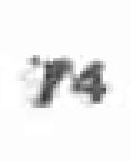14
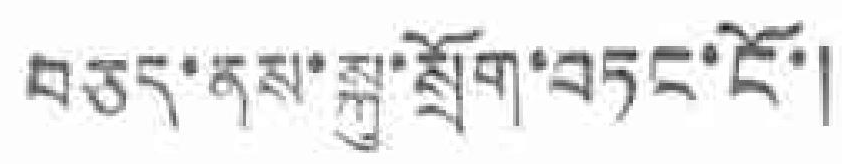བཅད་ནས་སྐུ་སྲོག་གཏང་ངོ་།
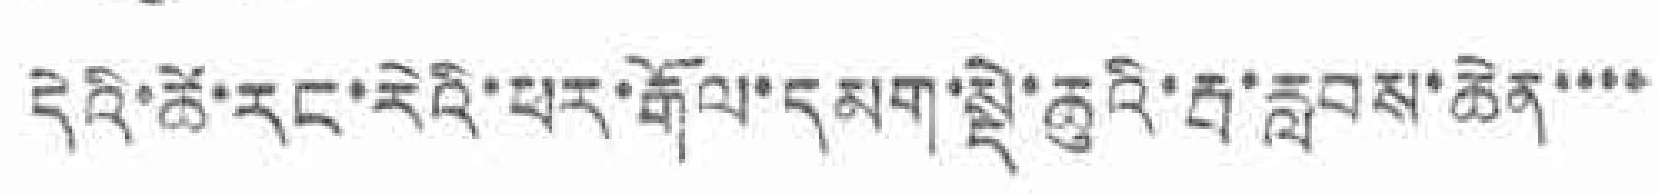དེའི་ཚེ་རང་རེའི་ཕར་རྒོལ་དམག་སྡེ་ཆུའི་རྦ་རླབས་ཆེན་་་་
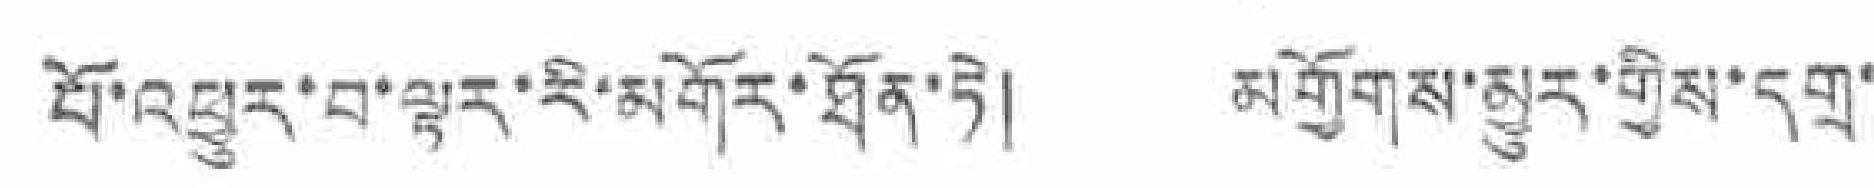པོ་འཕྱུར་བ་ལྟར་རི་མགོར་ཐོན་ཏེ། མགྱོགས་མྱུར་གྱིས་དགྲ་
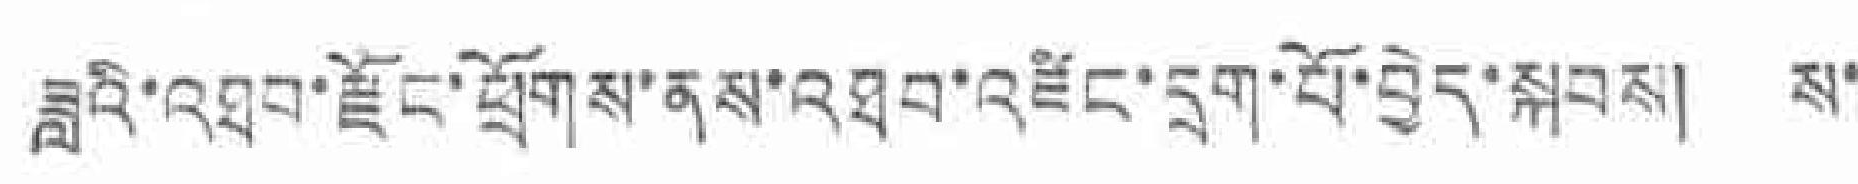ཟླའི་འཐབ་རྫོང་ཕྲོགས་ནས་འཐབ་འཛིང་དྲག་པོ་བྱེད་སྐབས། ས་
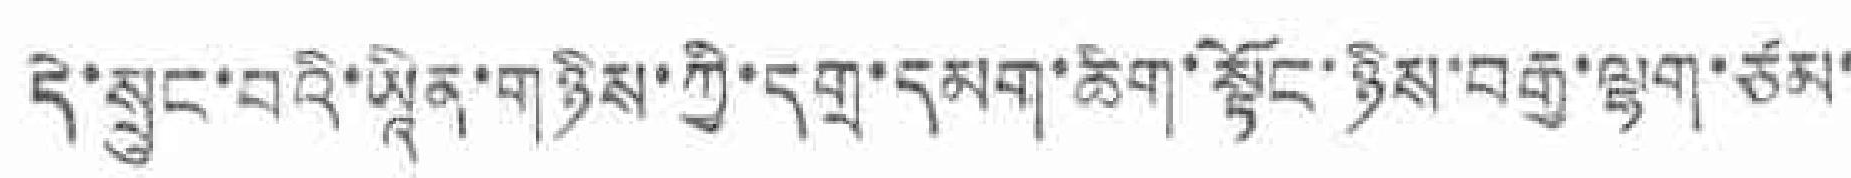དེ་སྲུང་བའི་ཡཱིན་གཉིས་ཀྱི་དགྲ་དམག་ཆིག་སྟོང་ཉིས་བརྒྱ་ལྷག་ཙམ་
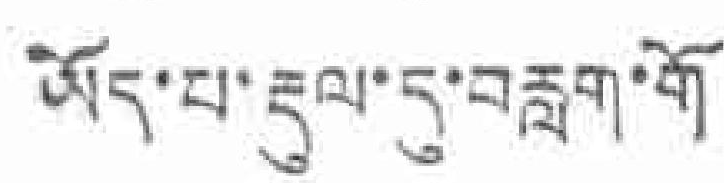ཡོད་པ་རྡུལ་དུ་བརླག་གོ
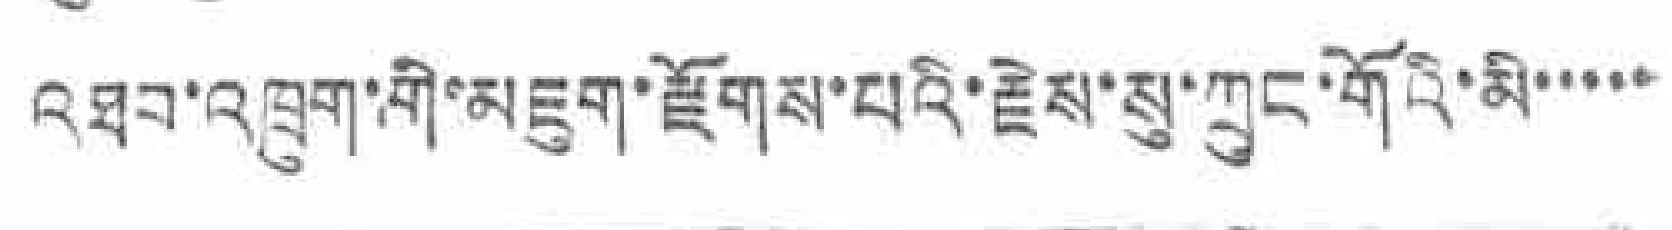འཐབ་འཁྲུག་གི་མཇུག་རྫོགས་པའི་རྗེས་སུ་ཀྲུང་གོའི་མི་་་་་
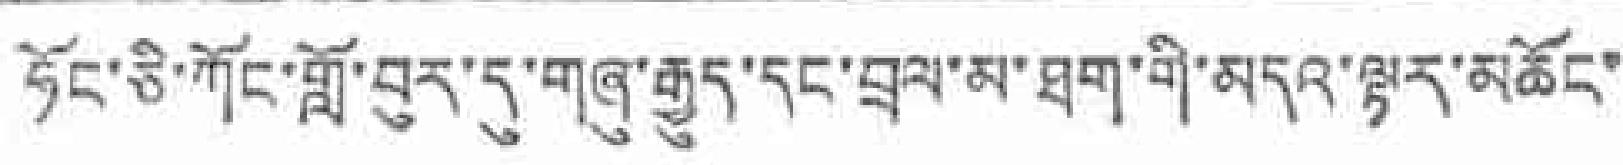ཧོང་ཅི་ཀོང་གློ་བུར་དུ་གཞུ་རྒྱུད་དང་བྲལ་མ་ཐག་གི་མདའ་ལྟར་མཆོང་
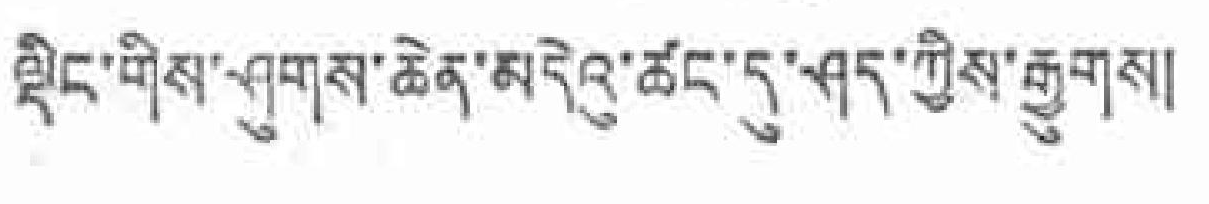ལྡིང་གིས་ཤུགས་ཆེན་མདེའུ་ཚང་དུ་ཤད་ཀྱིས་རྒྱུགས།
